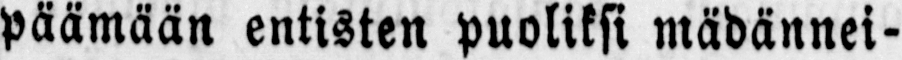päämään entisten puoliksi mädännei-
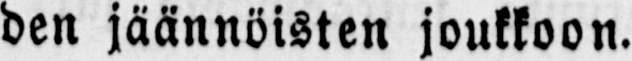den jäännöisten joukkoon.
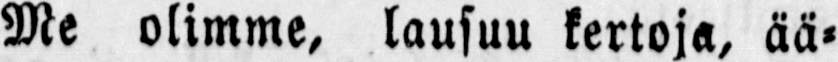Me olimme, lausuu kertoja, ää-
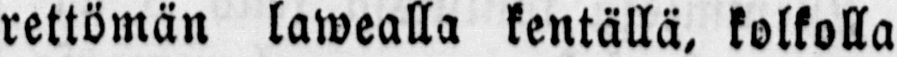rettömän lawealla kentällä, kolkolla
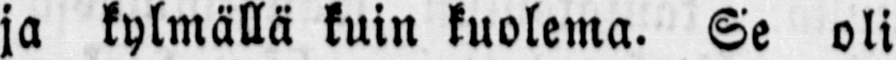ja kylmällä kuin kuolema. Se oli
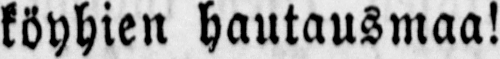köyhien hautausmaa!
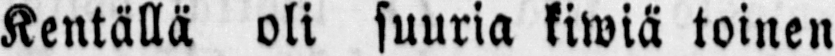Kentällä oli suuria kiwiä toinen
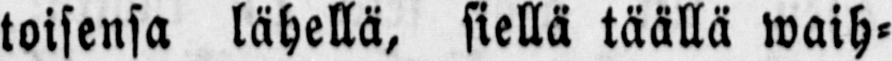toisensa lähellä, siellä täällä waih-
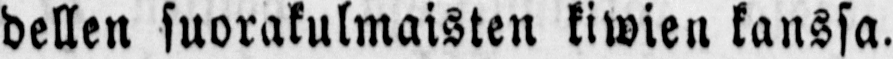dellen suorakulmaisten kiwien kanssa.
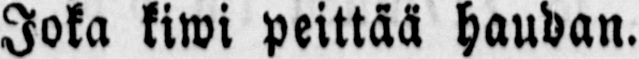Joka kiwi peittää haudan.
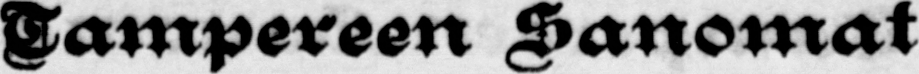Tampereen Sanomat.
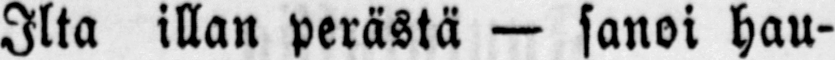Ilta illan perästä — sanoi hau-
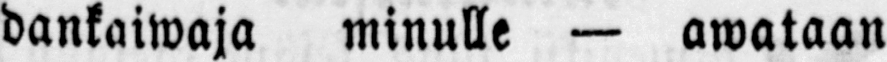dankaiwaja minulle — awataan
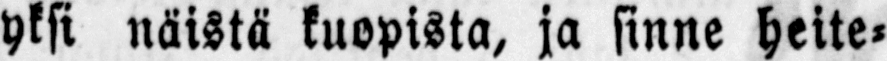yksi näistä kuopista, ja sinne heite-
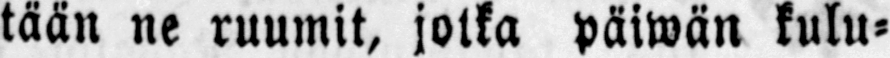tään ne ruumit, jotka päiwän kulu-
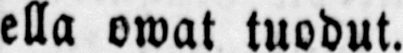ella owat tuodut.
